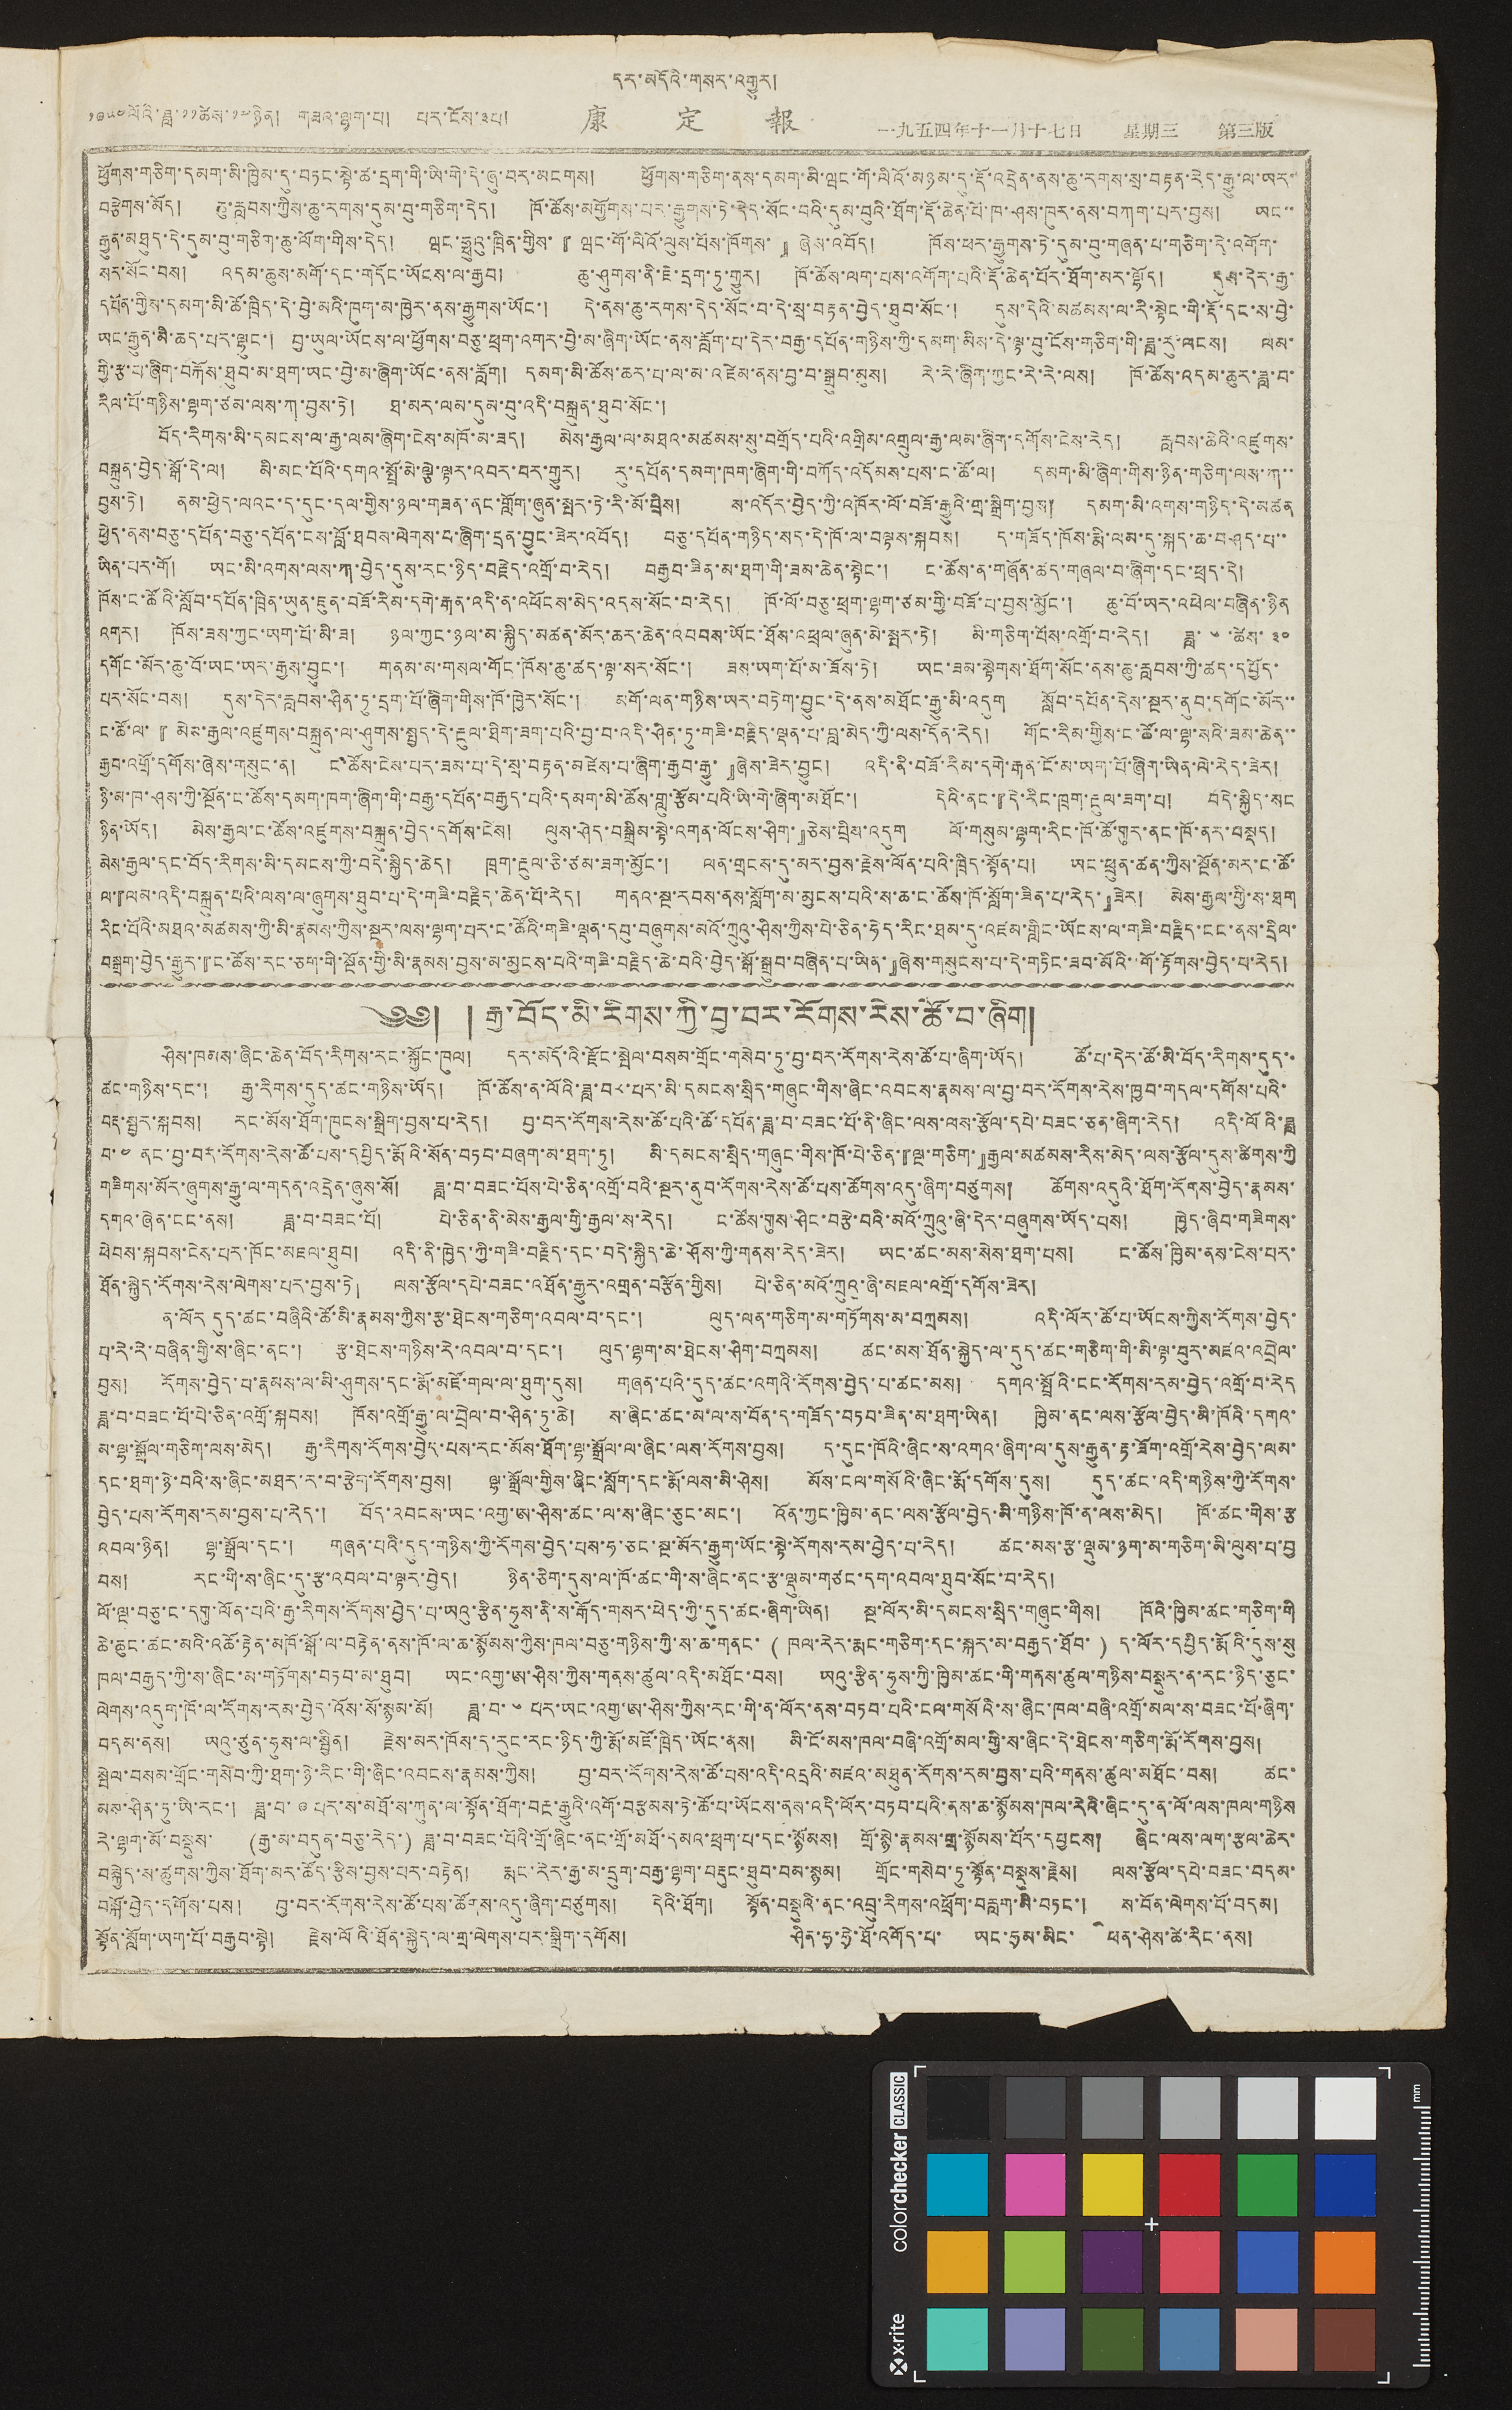དར་མདོའི་གསར་འགྱུར།
༡༩༥༤ ལོའི་ཟླ་ ༡༡ ཚེས་ ༡༧ ཉིན། གཟའ་ལྷག་པ། པར་ངོས་༣པ། 康 定 報 一九五四年十一月十七日 星期三 第三版
ཕྱོགས་གཅིག་དམག་མི་ཁྱིམ་དུ་བཏང་སྟེ་ཚ་དྲག་གི་ཡི་གེ་དེ་ཞུ་བར་མངགས། ཕྱོགས་གཅིག་ནས་དམག་མི་ཝང་གོ་ལིའོ་མཉམ་དུ་རྡོ་འདྲེན་ནས་ཆུ་རགས་སྲ་བརྟན་རེད་རྒྱུ་ལ་ཡར་
བརྩེགས་མོད། ཆུ་རླབས་ཀྱིས་ཆུ་རགས་དུམ་བུ་གཅིག་དེད། ཁོ་ཚོས་མགྱོགས་པར་རྒྱུགས་ཏེ་དེད་སོང་བའི་དུམ་བུའི་ཐོག་རྡོ་ཆེན་པོ་ཁ་ཤས་ཁུར་ནས་བཀག་པར་བྱས། ཡང་་
རྒྱུན་མཐུད་དེ་དུམ་བུ་གཅིག་ཆུ་ལོག་གིས་དེད། ཝང་ཧྥུའུ་ཁྲིན་གྱིས་『 ཝང་གོ་ལིའོ་ལུས་པོས་ཁོགས་ 』ཞེས་འབོད། ཁོས་ཕར་རྒྱུགས་ཏེ་དུམ་བུ་གཞན་པ་གཅིག་དེ་འགོག་
སར་སོང་བས། འདམ་ཆུས་མགོ་དང་གདོང་ཡོངས་ལ་རྒྱབ། ཆུ་ཤུགས་ནི་ཇེ་དྲག་ཏུ་གྱུར། ཁོ་ཚོས་ལག་པས་འགོག་པའི་རྡོ་ཆེན་པོར་ཐོག་མར་ལྷོད། དུས་དེར་རྒྱ་
དཔོན་གྱིས་དམག་མི་ཚོ་ཁྲིད་དེ་བྱེ་མའི་ཁུག་མ་ཁྱེར་ནས་རྒྱུགས་ཡོང་། དེ་ནས་ཆུ་རགས་དེད་སོང་བ་དེ་སྲ་བརྟན་བྱེད་ཐུབ་སོང་། དུས་དེའི་མཚམས་ལ་རི་སྟེང་གི་རྡོ་དང་ས་བྱེ་
ཡང་རྒྱུན་མི་ཆད་པར་ལྷུང་། བྱ་ཡུལ་ཡོངས་ལ་ཕྱོགས་བཅུ་ཕྲག་འགར་བྱེ་མ་ཞིག་ཡོང་ནས་རློག་པ་དེར་བརྒྱ་དཔོན་གཉིས་ཀྱི་དམག་མིས་དེ་ལྟ་བུ་ངོས་གཅིག་གི་ཟླ་རུ་ལངས། ལམ་
གྱི་རྩ་པ་ཞིག་བརྐོས་ཐུབ་མ་ཐག་ཡང་བྱེ་མ་ཞིག་ཡོང་ནས་རློག། དམག་མི་ཚོས་ཆར་པ་ལ་མ་འཛེམ་ནས་བྱ་བ་སྒྲུབ་མུས། རེ་རེ་ཞིག་ཀྱང་རེ་རེ་ལས། ཁོ་ཚོས་འདམ་ཆུར་ཟླ་བ་
རིལ་པོ་གཉིས་ལྷག་ཙམ་ལས་ཀ་བྱས་ཏེ། ཐ་མར་ལམ་དུམ་བུ་འདི་བསྐྲུན་ཐུབ་སོང་།
བོད་རིགས་མི་དམངས་ལ་རྒྱ་ལམ་ཞིག་ངེས་མཁོ་མ་ཟད། མེས་རྒྱལ་ལ་མཐའ་མཚམས་སུ་བགྲོད་པའི་འགྲིམ་འགྲུལ་རྒྱ་ལམ་ཞིག་དགོས་ངེས་རེད། རླབས་ཆེའི་འཛུགས་
བསྐྲུན་བྱེད་སྒོ་དེ་ལ། མི་མང་པོའི་དགའ་སྤྲོ་མེ་ལྕེ་ལྟར་འབར་བར་གྱུར། རུ་དཔོན་དམག་ཁག་ཞིག་གི་བཀོད་འདོམས་པས་ང་ཚོ་ལ། དམག་མི་ཞིག་གིས་ཉིན་གཅིག་ལས་ཀ་་
བྱས་ཏེ། ནམ་ཕྱེད་ལའང་ད་དུང་དལ་གྱིས་ཉལ་གཟན་ནང་གློག་ཞུན་སྤར་ཏེ་རི་མོ་བྲིས། ས་འདོར་བྱེད་ཀྱི་འཁོར་ལོ་བཟོ་རྒྱུའི་གྲ་སྒྲིག་བྱས། དམག་མི་འགས་གཉིད་དེ་མཚན
ཕྱེད་ནས་བཅུ་དཔོན་བཅུ་དཔོན་ངས་བློ་ཐབས་ལེགས་པ་ཞིག་དྲན་བྱུང་ཟེར་འབོད། བཅུ་དཔོན་གཉིད་སད་དེ་ཁོ་ལ་བལྟས་སྐབས། ད་གཟོད་ཁོས་རྨི་ལམ་དུ་སྐད་ཆ་བཤད་པ་་
ཡིན་པར་གོ། ཡང་མི་འགས་ལས་ཀ་བྱེད་དུས་རང་ཉིད་བརྗེད་འགྲོ་བ་རེད། བརྒྱབ་ཟིན་མ་ཐག་གི་ཟམ་ཆེན་སྟེང་། ང་ཚོས་ན་གཞོན་ཚད་གཞལ་བ་ཞིག་དང་ཕྲད་དེ།
ཁོས་ང་ཚོའི་སློབ་དཔོན་ཁྲིན་ཡུན་ཇུན་བཟོ་རིམ་དགེ་རྒན་འདི་ན་འཕོངས་མེད་འདས་སོང་བ་རེད། ཁོ་ལོ་བཅུ་ཕྲག་ལྷག་ཙམ་གྱི་བཟོ་པ་བྱས་མྱོང་། ཆུ་བོ་ཡར་འཕེལ་བཞིན་ཉིན
འགར། ཁོས་ཟས་ཀྱང་ཡག་པོ་མི་ཟ། ཉལ་ཀྱང་ཉལ་མ་སྐྱིད་མཚན་མོར་ཆར་ཆེན་འབབས་ཡོང་ཐོས་འཕྲལ་ཞུན་མེ་སྤར་ཏེ། མི་གཅིག་པོས་འགྲོ་བ་རེད། ཟླ་ ༦ ་ཚེས་ ༣༠
དགོང་མོར་ཆུ་བོ་ཡང་ཡར་རྒྱས་བྱུང་། གནམ་མ་གསལ་གོང་ཁོས་ཆུ་ཚད་ལྟ་སར་སོང་། ཟས་ཡག་པོ་མ་ཟོས་ཏེ། ཡང་ཟམ་སྟེགས་ཐོག་སོང་ནས་ཆུ་རླབས་ཀྱི་ཚད་དཔྱོད་
པར་སོང་བས། དུས་དེར་རླབས་ཤིན་ཏུ་དྲག་པོ་ཞིག་གིས་ཁོ་ཁྱེར་སོང་། མགོ་ལན་གཉིས་ཡར་བཏེག་བྱུང་དེ་ནས་མཐོང་རྒྱུ་མི་འདུག སློབ་དཔོན་དེས་སྔར་ནུབ་དགོང་མོར་་
ང་ཚོ་ལ་『 མེས་རྒྱལ་འཛུགས་བསྐྲུན་ལ་ཤུགས་སྤྱད་དེ་རྔུལ་ཐིག་ཟག་པའི་བྱ་བ་འདི་ཤིན་ཏུ་གཟི་བརྗིད་ལྡན་པ་བླ་མེད་ཀྱི་ལས་དོན་རེད། གོང་རིམ་གྱིས་ང་ཚོ་ལ་ལྷ་སའི་ཟམ་ཆེན་་
རྒྱབ་འགྲོ་དགོས་ཞེས་གསུང་ན། ང་ཚོས་ངེས་པར་ཟམ་པ་དེ་སྲ་བརྟན་མཛེས་པ་ཞིག་རྒྱབ་རྒྱུ་』ཞེས་ཟེར་བྱུང ། འདི་ནི་བཟོ་རིམ་དགེ་རྒན་ངོ་མ་ཡག་པོ་ཞིག་ཡིན་ལེ་རེད་ཟེར།
ཉི་མ་ཁ་ཤས་ཀྱི་སྔོན་ང་ཚོས་དམག་ཁག་ཞིག་གི་བརྒྱ་དཔོན་བརྒྱད་པའི་དམག་མི་ཚོས་གླུ་རྩོམ་པའི་ཡི་གེ་ཞིག་མཐོང་། དེའི་ནང་『དེ་རིང་ཁྲག་རྔུལ་ཟག་པ། བདེ་སྐྱིད་སང
ཉིན་ཡོད། མེས་རྒྱལ་ང་ཚོས་འཛུགས་བསྐྲུན་བྱེད་དགོས་ངེས། ལུས་ཤེད་བསྒྲིམ་སྟེ་འགན་ལོངས་ཤིག་』ཅེས་བྲིས་འདུག ལོ་གསུམ་ལྷག་རིང་ཁོ་ཚོ་གུར་ནང་ཁོ་ནར་བསྡད།
མེས་རྒྱལ་དང་བོད་རིགས་མི་དམངས་ཀྱི་བདེ་སྐྱིད་ཆེད། ཁྲག་རྔུལ་ཅི་ཙམ་ཟག་མྱོང་། ལན་གྲངས་དུ་མར་བྱས་རྗེས་ལོན་པའི་ཁྲིད་སྟོན་པ། ཡང་ཕྲུན་ཚན་ཀྱིས་སྔོན་མར་ང་ཚོ་
ལ་『ལམ་འདི་བསྐྲུན་པའི་ལས་ལ་ཞུགས་ཐུབ་པ་དེ་གཟི་བརྗིད་ཆེན་པོ་རེད། གནའ་སྔ་རབས་ནས་སློག་མ་མྱངས་པའི་ས་ཆ་ང་ཚོས་ཁོ་སློག་ཟིན་པ་རེད་』ཟེར། མེས་རྒྱལ་གྱི་ས་ཐག
རིང་པོའི་མཐའ་མཚམས་ཀྱི་མི་རྣམས་ཀྱིས་སྔར་ལས་ལྷག་པར་ང་ཚོའི་གཟི་ལྡན་དབུ་བཞུགས་མའོ་ཀྲུའུ་ཤིས་ཀྱིས་པེ་ཅིན་ཧེད་རིང་ཐམ་དུ་འཛམ་གླིང་ཡོངས་ལ་གཟི་བརྗིད་ངང་ནས་དྲིལ་
བསྒྲག་བྱེད་རྒྱུར་『ང་ཚོས་རང་ཅག་གི་སྔོན་གྱི་མི་རྣམས་བྱས་མ་མྱངས་པའི་གཟི་བརྗིད་ཆེ་བའི་བྱེད་སྒོ་སྒྲུབ་བཞིན་པ་ཡིན་』ཞེས་གསུངས་པ་དེ་གཏིང་ཟབ་མོའི་་གོ་རྟོགས་བྱེད་པ་རེད།
༄༅། ། རྒྱ་བོད་མི་རིགས་ཀྱི་བྱ་བར་རོགས་རེས་ཚོ་བ་ཞིག།།
ཤིས་ཁམས་ཞིང་ཆེན་བོད་རིགས་རང་སྐྱོང་ཁུལ། དར་མདོ་འི་རྫོང་སྤེལ་བསམ་གྲོང་གསེབ་ཏུ་བྱ་བར་རོགས་རེས་ཚོ་པ་ཞིག་ཡོད། ཚོ་པ་དེར་ཚོ་མི་བོད་རིགས་དུད་་
ཚང་གཉིས་དང་། རྒྱ་རིགས་དུད་ཚང་གཉིས་ཡོད། ཁོ་ཚོས་ན་ལོའི་ཟླ་བ ༨་པར་མི་དམངས་སྲིད་གཞུང་གིས་ཞིང་འབངས་རྣམས་ལ་བྱ་བར་རོགས་རེས་ཁྱབ་གདལ་དགོས་པའི་
བརྡ་སྦྱར་སྐབས། རང་མོས་ཐོག་ཁུངས་སྒྲིག་བྱས་པ་རེད། བྱ་བར་རོགས་རེས་ཚོ་པའི་ཚོ་དཔོན་ཟླ་བ་བཟང་པོ་ནི་ཞིང་ལས་ལས་རྩོལ་དཔེ་བཟང་ཅན་ཞིག་རེད། འདི་ལོའི་ཟླ
བ་ ༤ ནང་བྱ་བར་རོགས་རེས་ཚོ་པས་དཔྱིད་རྨོའི་སོན་བཏབ་བཞག་མ་ཐག་ཏུ། མི་དམངས་སྲིད་གཞུང་གིས་ཁོ་པེ་ཅིན་『ལྔ་གཅིག་』རྒྱལ་མཚམས་རིས་མེད་ལས་རྩོལ་དུས་ཚིགས་ཀྱི
གཟིགས་མོར་ཞུགས་རྒྱུ་ལ་གདན་འདྲེན་ཞུས་སོ། ཟླ་བ་བཟང་པོས་པེ་ཅིན་འགྲོ་བའི་སྔར་ནུབ་རོགས་རེས་ཚོ་པས་ཚོགས་འདུ་ཞིག་བཙུགས། ཚོགས་འདུའི་ཐོག་རོགས་བྱེད་རྣམས་
དགའ་ཞེན་ངང་ནས། ཟླ་བ་བཟང་པོ། པེ་ཅིན་ནི་མེས་རྒྱལ་གྱི་རྒྱལ་ས་རེད། ང་ཚོས་གུས་ཤིང་བརྩེ་བའི་མའོ་ཀྲུའུ་ཞི་དེར་བཞུགས་ཡོད་པས། ཁྱེད་ཞིབ་གཟིགས་
ཕེབས་སྐབས་ངེས་པར་ཁོང་མཇལ་ཐུབ། འདི་ནི་ཁྱེད་ཀྱི་གཟི་བརྗིད་དང་བདེ་སྐྱིད་ཆེ་ཤོས་ཀྱི་གནས་རེད་ཟེར། ཡང་ཚང་མས་སེས་ཐག་པས། ང་ཚོས་ཁྱིམ་ནས་ངེས་པར་
ཐོན་སྐྱེད་རོགས་རེས་ལེགས་པར་བྱས་ཏེ། ལས་རྩོལ་དཔེ་བཟང་འཐོན་རྒྱུར་འགྲན་བརྩོན་གྱིས། པེ་ཅིན་མའོ་ཀྲུའུ་ཞི་མཇལ་འགྲོ་དགོས་ཟེར།
ན་ལོར དུད་ཚང་བཞིའི་ཚོ་མི་རྣམས་ཀྱིས་རྩ་ཐེངས་གཅིག་འབལ་བ་དང་། ལུད་ལན་གཅིག་མ་གཏོགས་མ་བཀྲམས། འདི་ལོར་ཚོ་པ་ཡོངས་ཀྱིས་རོགས་བྱེད་
པ་རེ་རེ་བཞིན་གྱི་ས་ཞིང་ནང་། རྩ་ཐེངས་གཉིས་རེ་འབལ་བ་དང་། ལུད་ལྷག་མ་ཐེངས་ཤིག་བཀྲམས། ཚང་མས་ཐོན་སྐྱེད་ལ་དུད་ཚང་གཅིག་གི་མི་ལྟ་བུར་མཛའ་འབྲེལ་
བྱས། རོགས་བྱེད་པ་རྣམས་ལ་མི་ཤུགས་དང་རྨོ་མཛོ་གལ་ལ་ཐུག་དུས། གཞན་པའི་དུད་ཚང་འགའི་རོགས་བྱེད་པ་ཚང་མས། དགའ་སྤྲོའི་ངང་རོགས་རམ་བྱེད་འགྲོ་བ་རེད
ཟླ་བ་བཟང་པོ་པེ་ཅིན་འགྲོ་སྐབས། ཁོས་འགྲོ་རྒྱུ་ལ་བྲེལ་བ་ཤིན་ཏུ་ཆེ། ས་ཞིང་ཚང་མ་ལ་ས་བོན་ད་གཟོད་བཏབ་ཟིན་མ་ཐག་ཡིན། ཁྱིམ་ནང་ལས་རྩོལ་བྱེད་མི་ཁོའི་དགའ་
མ་ལྷ་སྒྲོལ་གཅིག་ལས་མེད། རྒྱ་རིགས་རོགས་བྱེད་པས་རང་མོས་ཐོག་ལྷ་སྒྲོལ་ལ་ཞིང་ལས་རོགས་བྱས། ད་དུང་ཁོའི་ཞིང་ས་འགའ་ཞིག་ལ་དུས་རྒྱུན་རྟ་ཟོག་འགྲོ་རེས་བྱེད་ལམ་
དང་ཐག་ཉེ་བའི་ས་ཞིང་མཐར་ར་བ་རྩེག་རོགས་བྱས། ལྷ་སྒྲོལ་གྱིས་ཞིང་སློག་དང་རྨོ་ལས་མི་ཤེས། མོས་ངལ་གསོའི་ཞིང་རྨོ་དགོས་དུས། དུད་ཚང་འདི་གཉིས་ཀྱི་རོགས་
བྱེད་པས་རོགས་རམ་བྱས་པ་རེད་། བོད་འབངས་ཡང་འགྱ་ཨ་ཤིས་ཚང་ལ་ས་ཞིང་ཅུང་མང་། འོན་ཀྱང་ཁྱིམ་ནང་ལས་རྩོལ་བྱེད་མི་གཉིས་ཁོ་ན་ལས་མེད། ཁོ་ཚང་གིས་རྩ
འབལ་ཉིན། ལྷ་སྒྲོལ་དང་། གཞན་པའི་དུད་གཉིས་ཀྱི་རོགས་བྱེད་པས་ཧ་ཅང་སྔ་མོར་རྒྱུག་ཡོང་སྟེ་རོགས་རམ་བྱེད་པ་རེད། ཚང་མས་རྩ་ལྡུམ་ཉག་མ་གཅིག་མི་ལུས་པ་བྱ
བས། རང་གི་ས་ཞིང་དུ་རྩ་འབལ་བ་ལྟར་བྱེད། ཉིན་ཅིག་དུས་ལ་ཁོ་ཚང་གི་ས་ཞིང་ནང་རྩ་ལྡུམ་གཙང་དག་འབལ་ཐུབ་སོང་བ་རེད།
ལོ་ལྔ་བཅུ་ང་དགུ་ལོན་པའི་རྒྱ་རིགས་རོགས་བྱེད་པ་ཡའུ་རྩིན་ཧུས་ནི་ས་རྒོད་གསར་ཕེད་ཀྱི་དུད་ཚང་ཞིག་ཡིན། སྔ་ལོར་མི་དམངས་སྲིད་གཞུང་གིས། ཁོའི་ཁྱིམ་ཚང་གཅིག་གི
ཆེ་ཆུང་ཚང་མའི་འཚོ་རྟེན་མཁོ་སྒོ་ལ་བརྟེན་ནས་ཁོ་ལ་ཆ་སྙོམས་ཀྱིས་ཁལ་བཅུ་གཉིས་ཀྱི་ས་ཆ་གནང་ ( ཁལ་རེར་རྨང་གཅིག་དང་སྐར་མ་བརྒྱད་ཐོབ་ ) ད་ལོར་དཔྱིད་རྨོའི་དུས་སུ
ཁལ་བརྒྱད་ཀྱི་ས་ཞིང་མ་གཏོགས་བཏབ་མ་ཐུབ། ཡང་འགྱ་ཨ་ཤིས་ཀྱིས་གནས་ཚུལ་འདི་མཐོང་བས། ཡའུ་རྩིན་ཧུས་ཀྱི་ཁྱིམ་ཚང་གི་གནས་ཚུལ་གཉིས་བསྡུར་ན་རང་ཉིད་ཅུང་
ལེགས་འདུག་ཁོ་ལ་རོགས་རམ་བྱེད་འོས་སོ་སྙམ་མོ། ཟླ་བ་ ༦ པར་ཡང་འགྱ་ཨ་ཤིས་ཀྱིས་རང་གི་ན་ལོར་ནས་བཏབ་པའི་ངལ་གསོའི་ས་ཞིང་ཁལ་བཞི་འགྲོ་མལ་ས་བཟང་པོ་ཞིག་
བདམ་ནས། ཡའུ་ཙུན་ཧུས་ལ་སྦྱིན། རྗེས་མར་ཁོས་ད་རུང་རང་ཉིད་ཀྱི་རྨོ་མཛོ་ཁྲིད་ཡོང་ནས། མི་ངོ་མས་ཁལ་བཞི་འགྲོ་མལ་གྱི་ས་ཞིང་དེ་ཐེངས་གཅིག་རྨོ་རོགས་བྱས།
སྦེལ་བསལ་གྲོང་གསེབ་ཀྱི་ཐག་ཉེ་རིང་གི་ཞིང་འབངས་རྣམས་ཀྱིས། བྱ་བར་རོགས་རེས་ཚོ་བས་འདི་འདྲའི་མཛའ་མཐུན་རོགས་རམ་བྱས་པའི་གནས་ཚུལ་མཐོང་བས། ཚང་
མས་ཤིན་ཏུ་ཡི་རང་། ཟླ་བ་ ༩ པར་ས་མཐོ་ས་ཀུན་ལ་སྟོན་ཐོག་བརྔ་རྒྱུའི་འགོ་བརྩམས་ཏེ་ཚོ་པ་ཡོངས་ནས་འདི་ལོར་བཏབ་པའི་ནས་ཆ་སྙོམས་ཁལ་རེའི་ཞིང་དུ་ན་ལོ་ལས་ཁལ་གཉིས
དེ་ལྷག་མོ་བསྡུས་ (རྒྱ་མ་བདུན་བཅུ་རེད་) ཟླ་བ་བཟང་པོའི་གྲོ་ཞིང་ནང་གྲོ་མཐོ་དམའ་ཕྲག་པ་དང་སྙོམས། གྲོ་སྙེ་རྣམས་གྲ་སྙོམས་པོར་དཔྱངས། ཞིང་ལས་ལག་རྩལ་ཆེར་
བསྐྱེད་ས་ཚུགས་ཀྱིས་ཐོག་མར་ཚོད་རྩིས་བྱས་པར་བརྟེན། རྨང་རེར་རྒྱ་མ་དྲུག་བརྒྱ་ལྷག་བརྡུང་ཐུབ་བམ་སྙམ། གྲོང་གསེབ་ཏུ་སྟོན་བསྡུས་རྗེས། ལས་རྩོལ་དཔེ་བཟང་བདམ་
བསྐོ་བྱེད་དགོས་པས། བྱ་བར་རོགས་རེས་ཚོ་པས་ཚོགས་འདུ་ཞིག་བཙུགས། དེའི་ཐོག།། སྟོན་བསྡུའི་ནང་འབྲུ་རིགས་འཕྲོག་བརླག་མི་བཏང་། ས་བོན་ལེགས་པོ་བདམ།
སྟོན་སློག་ཡག་པོ་བརྒྱབ་སྟེ། རྗེས་ལོའི་ཐོན་སྐྱེད་ལ་གྲ་ལེགས་པར་སྒྲིག་དགོས། ཤིན་ཧྭ་ཧྲེ་ཐོ་འགོད་པ་ ཡང་ཧྲམ་མིང་ ཕན་ཤེས་ཚེ་རིང་ནས།
ཤིན་ཧྭ་ཧྲེ་ཐོ་འགོད་པ་ ཡང་ཧྲམ་མིང་ ཕན་ཤེས་ཚེ་རིང་ནས།
